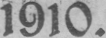1910.
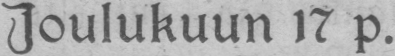Joulukuun 17 p.
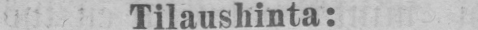Tilaushinta:
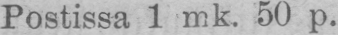Postissa 1 mk. 50 p.
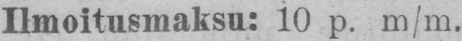Ilmoitusmaksu: 10 p. m/m.
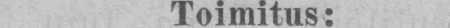Toimitus:
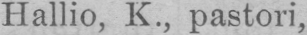Hallio, K., pastori,
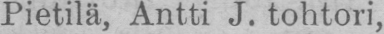Pietilä, Antti J. tohtori,
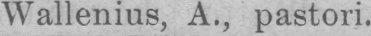Wallenius, A., pastori.
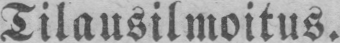Tilausilmoitus.
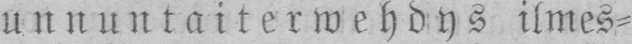Sunnuntaiterwehdys ilmes-
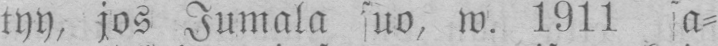tyy, jos Jumala suo, w. 1911 sa-
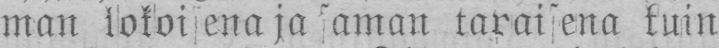man kokoisena ja saman tapaisena kuin
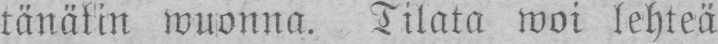tänäkin wuonna. Tilata woi lehteä
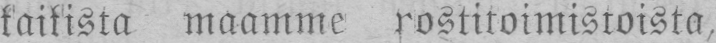kaikista maamme postitoimistoista,
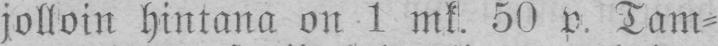jolloin hintana on 1 mk. 50 p. Tam-
